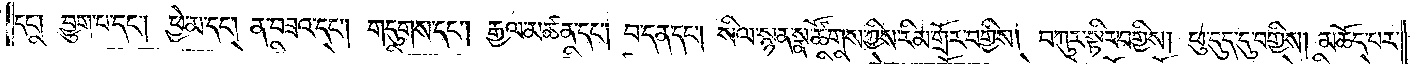དང༌། བྱུག་པ་དང༌། ཕྱེ་མ་དང༌། ན་བཟའ་དང༌། གདུགས་དང༌། རྒྱལ་མཚན་དང༌། བ་དན་དང༌། སིལ་སྙན་སྣ་ཚོགས་ཀྱིས་རིམ་གྲོར་བགྱིས། བཀུར་སྟིར་བགྱིས། ཕུ་དུད་དུ་བགྱིས། མཆོད་པར་
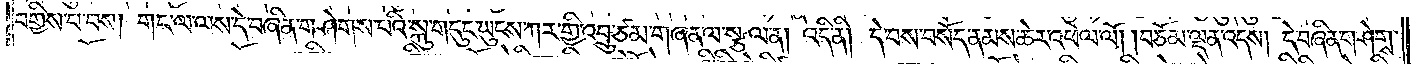བགྱིས་པ་བས། གང་ལ་ལས་དེ་བཞིན་གཤེགས་པའི་སྐུ་གདུང་ཡུངས་ཀར་གྱི་འབྲུ་ཙམ་གཞན་ལ་སྩལ་ན། འདི་ནི། དེ་བས་བསོད་ནམས་ཆེར་འཕེལ་ལོ། །བཅོམ་ལྡན་འདས། དེ་བཞིན་གཤེགས་
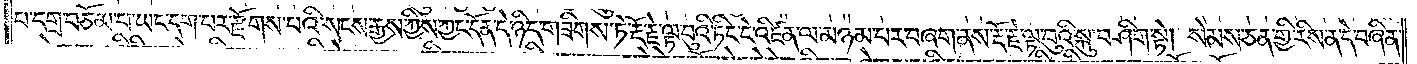པ་དགྲ་བཅོམ་པ་ཡང་དག་པར་རྫོགས་པའི་སངས་རྒྱས་ཀྱིས་ཀྱང་དོན་དེ་ཉིད་གཟིགས་ཏེ་རྡོ་རྗེ་ལྟ་བུའི་ཏིང་ངེ་འཛིན་ལ་མཉམ་པར་བཞག་ནས་རྡོ་རྗེ་ལྟ་བུའི་སྐུ་བཤིག་སྟེ། སེམས་ཅན་གྱི་རིས་ན་དེ་བཞིན་
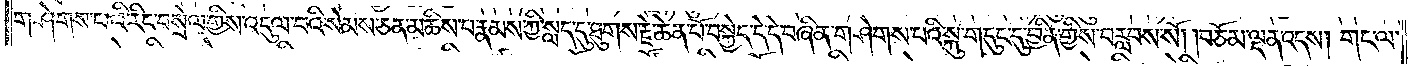གཤེགས་པའི་རིང་བསྲེལ་གྱིས་འདུལ་བའི་སེམས་ཅན་མཆིས་པ་རྣམས་ཀྱི་སླད་དུ་ཐུགས་རྗེ་ཆེན་པོ་བསྐྱེད་དེ་དེ་བཞིན་གཤེགས་པའི་སྐུ་གདུང་དུ་བྱིན་གྱིས་བརླབས་སོ། །བཅོམ་ལྡན་འདས། གང་ལ་
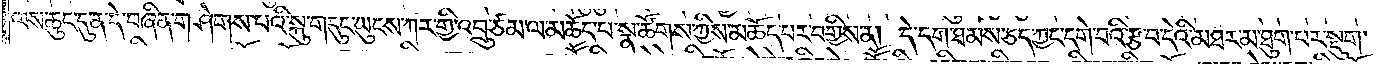ལས་ཆུང་དུ་ན་དེ་བཞིན་གཤེགས་པའི་སྐུ་གདུང་ཡུངས་ཀར་གྱི་འབྲུ་ཙམ་ལ་མཆོད་པ་སྣ་ཚོགས་ཀྱིས་མཆོད་པར་བགྱིས་ན། དེ་དག་ཐམས་ཅད་ཀྱང་དགེ་བའི་རྩ་བ་དེའི་མཐར་མ་ཐུག་པར་སྡུག་
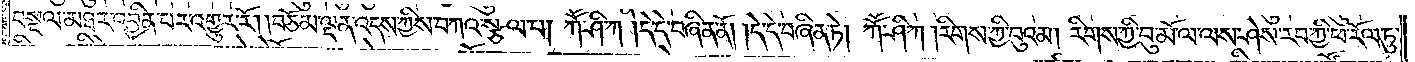བསྔལ་མཐར་འབྱིན་པར་འགྱུར་རོ། །བཅོམ་ལྡན་འདས་ཀྱིས་བཀའ་སྩལ་པ། ཀཽ་ཤི་ཀ །དེ་དེ་བཞིན་ནོ། །དེ་དེ་བཞིན་ཏེ། ཀཽ་ཤི་ཀ །རིགས་ཀྱི་བུའམ། རིགས་ཀྱི་བུ་མོ་ལ་ལས་ཤེས་རབ་ཀྱི་ཕ་རོལ་ཏུ་
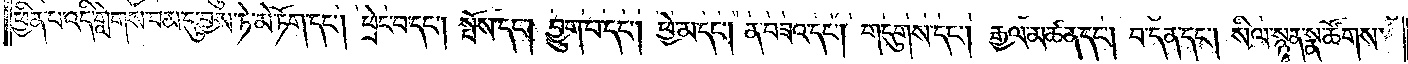ཕྱིན་པ་འདི་གླེགས་བམ་དུ་བྱས་ཏེ་མེ་ཏོག་དང༌། ཕྲེང་བ་དང༌། སྤོས་དང༌། བྱུག་པ་དང༌། ཕྱེ་མ་དང༌། ན་བཟའ་དང༌། གདུགས་དང༌། རྒྱལ་མཚན་དང༌། བ་དན་དང༌། སིལ་སྙན་སྣ་ཚོགས་
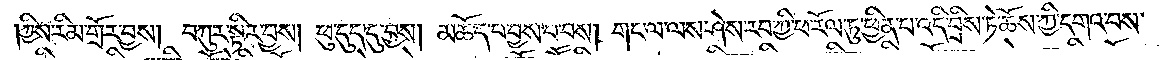ཀྱིས་རིམ་གྲོར་བྱས། བཀུར་སྟིར་བྱས། ཕུ་དུད་དུ་བྱས། མཆོད་པ་བྱས་པ་བས། གང་ལ་ལས་ཤེས་རབ་ཀྱི་ཕ་རོལ་ཏུ་ཕྱིན་པ་འདི་བྲིས་ཏེ་ཆོས་ཀྱི་དགའ་བས་
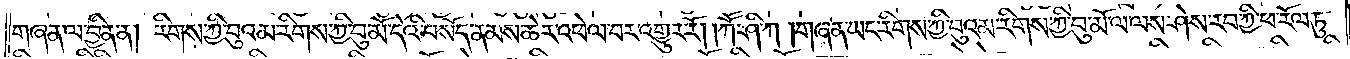གཞན་ལ་བྱིན་ན། རིགས་ཀྱི་བུའམ་རིགས་ཀྱི་བུ་མོ་དེའི་བསོད་ནམས་ཆེར་འཕེལ་བར་འགྱུར་རོ། །ཀཽ་ཤི་ཀ །གཞན་ཡང་རིགས་ཀྱི་བའམ་རིགས་ཀྱི་བུ་མོ་ལ་ལས་ཤེས་རབ་ཀྱི་ཕ་རོལ་ཏུ་
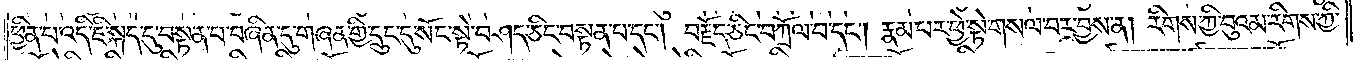ཕྱིན་པ་འདི་ཇི་སྐད་དུ་བསྟན་པ་བཞིན་དུ་གཞན་གྱི་དྲུང་དུ་སོང་སྟེ་བཤད་ཅིང་བསྟན་པ་དང༌། བརྗོད་ཅིང་བཀྲོལ་བ་དང༌། རྣམ་པར་ཕྱེ་སྟེ་གསལ་བར་བྱས་ན། རིགས་ཀྱི་བུའམ་རིགས་ཀྱི་
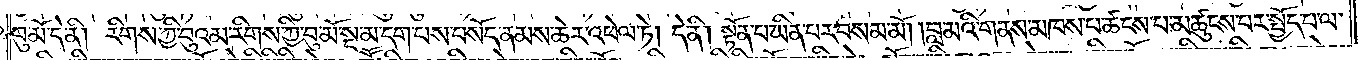བུ་མོ་དེ་ནི། རིགས་ཀྱི་བུའམ་རིགས་ཀྱི་བུ་མོ་སྔ་མ་དག་པས་བསོད་ནམས་ཆེར་འཕེལ་ཏེ། དེ་ནི། སྟོན་པ་ཡིན་པར་བསམ་མོ། །བླ་མའི་གནས་མཁས་པ་ཚངས་པ་མཚུངས་པར་སྤྱོད་པ་ལ་
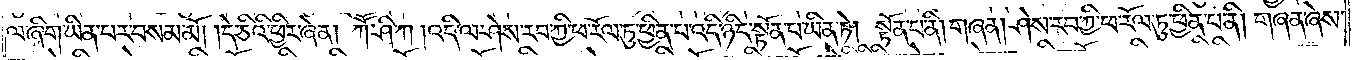ལ་ཞིག་ཡིན་པར་བསམ་མོ། །དེ་ཅིའི་ཕྱིར་ཞེ་ན། ཀཽ་ཤི་ཀ །འདི་ལ་ཤེས་རབ་ཀྱི་ཕ་རོལ་ཏུ་ཕྱིན་པ་འདི་ཉིད་སྟོན་པ་ཡིན་ཏེ། སྟོན་པ་ནི། གཞན། ཤེས་རབ་ཀྱི་ཕ་རོལ་ཏུ་ཕྱིན་པ་ནི། གཞན་ཞེས་
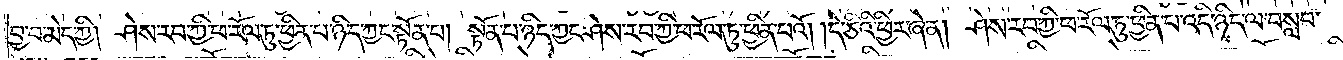བྱ་བ་མེད་ཀྱི། ཤེས་རབ་ཀྱི་ཕ་རོལ་ཏུ་ཕྱིན་པ་ཉིད་ཀྱང་སྟོན་པ། སྟོན་པ་ཉིད་ཀྱང་ཤེས་རབ་ཀྱི་ཕ་རོལ་ཏུ་ཕྱིན་པའོ། །དེ་ཅིའི་ཕྱིར་ཞེ་ན། ཤེས་རབ་ཀྱི་ཕ་རོལ་ཏུ་ཕྱིན་པ་འདི་ཉིད་ལ་བསླབ་
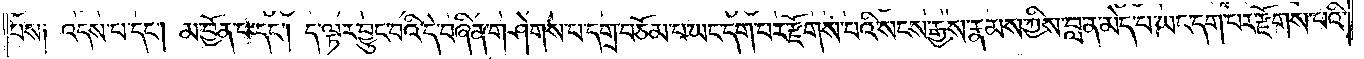པས། འདས་པ་དང༌། མ་བྱོན་པ་དང༌། ད་ལྟར་བྱུང་བའི་དེ་བཞིན་གཤེགས་པ་དགྲ་བཅོམ་པ་ཡང་དག་པར་རྫོགས་པའི་སངས་རྒྱས་རྣམས་ཀྱིས་བླ་ན་མེད་པ་ཡང་དག་པར་རྫོགས་པའི་
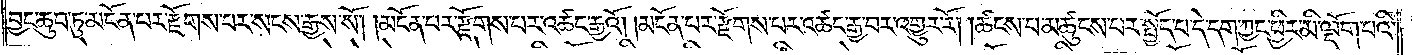བྱང་ཆུབ་ཏུ་མངོན་པར་རྫོགས་པར་སངས་རྒྱས་སོ། །མངོན་པར་རྫོགས་པར་འཚང་རྒྱའོ། །མངོན་པར་རྫོགས་པར་འཚང་རྒྱ་བར་འགྱུར་རོ། །ཚངས་པ་མཚུངས་པར་སྤྱོད་པ་དེ་དག་ཀྱང་ཕྱིར་མི་ལྡོག་པའི་
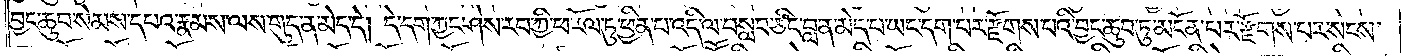བྱང་ཆུབ་སེམས་དཔའ་རྣམས་ལས་གུད་ན་མེད་དེ། དེ་དག་ཀྱང་ཤེས་རབ་ཀྱི་ཕ་རོལ་ཏུ་ཕྱིན་པ་འདི་ལ་བསླབས་ཤིང་བླ་ན་མེད་པ་ཡང་དག་པར་རྫོགས་པའི་བྱང་ཆུབ་ཏུ་མངོན་པར་རྫོགས་པར་སངས་
